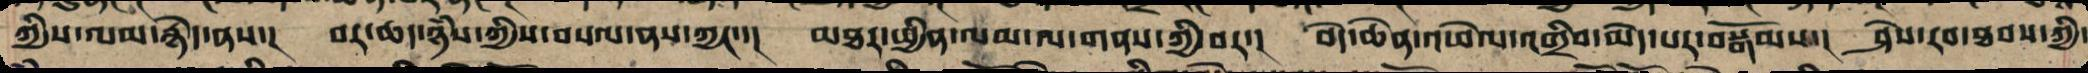ཀྱི་ལམ་རྙེད་ནས་། བར་ཆད་ཉཾས་ཀྱིས་བསལ་ནས་ཀྱང་་། མཐར་ཕྱིན་ལམ་ལ་གནས་ཀྱི་བར་། བདེ་ཆེན་འཕེལ་འགྲིབ་མེད་པར་བསྒོམས་། ཤེས་རབ་ཐབས་ཀྱི་
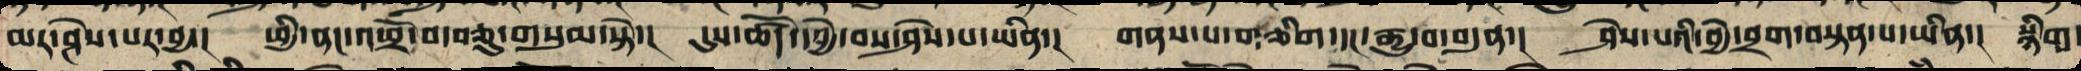མར་ཤེས་པར་བྱ་། ཕྱི་ནང་འཕྲོ་བ་བཅུ་གསུམ་སྟེ་། དུས་ཚོད་དབྱེ་བས་ཤེས་པ་ཡིན་། གནས་པ་གཅིག་དང་རྒྱུ་བ་བདུན་། ཤེས་པའི་བྱེ་བྲག་བསྟན་པ་ཡིན་། སྙིག་
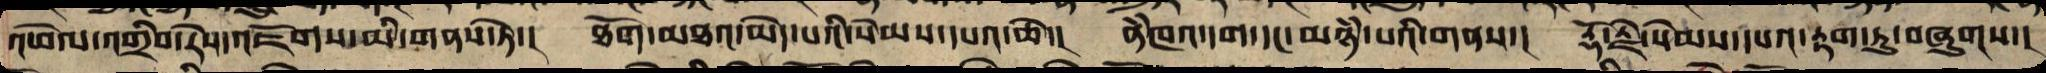འཕེལ་འགྲིབ་རེས་འཇོགས་མི་གནས་ཏེ་།  ཐོག་མཐའ་མེད་པའི་སེམས་དཔའ་ཆེ་།  ནཾཁའ་དག་དང་མཉཾ་པའི་གནས་།  རྡོ་རྗེ་སེམས་དཔའ་རྟག་ཏུ་བཞུགས་།
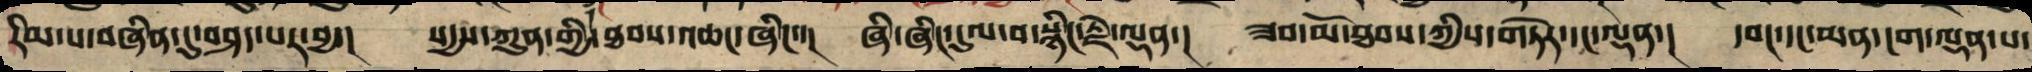རིམ་པ་བཞིན་དུ་བཤད་པར་བྱ་། སདྱས་ཀུན་གྱི་ཐབས་འཆང་ཞིང་་། ཞི་ཞིང་དུལ་བ་སྙིང་རྗེ་ལྡན་། ཟབ་མོ་ཐབས་ཀྱིས་གཏེར་དང་ལྡན་། དབང་དང་མན་ངག་ལྡན་པ་
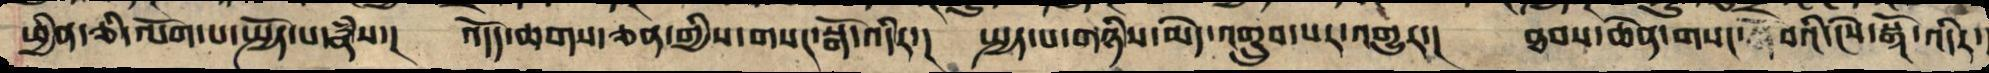ཕྱིན་ཅི་ལོག་པ་སྤྱོད་པ་རྣཾས་། འདོད་ཆགས་ཅན་གྱི་གསང་སྒོ་འདིར་། སྤྱད་པས་གཉིས་མེད་འགྲུབ་པར་འགྱུར་། ཐབས་ཆེན་གསང་བའི་ངེས་སྒོ་འདིར་
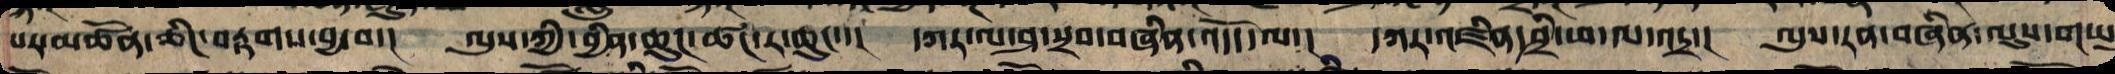པར་མཚོན་ཅིང་བརྟག་བྱ་བ་། ལུས་ཀྱི་བྱིན་ཆུང་ཚང་ར་ཆུང་་། དཀར་ལ་ཤ་སྲབ་བཞིན་འདོད་ལ་། དཀར་འཛིན་ཤྲཱི་ཕ་ལ་འདྲ་། ལུས་རན་བཞིན་ལུས་གཡུ
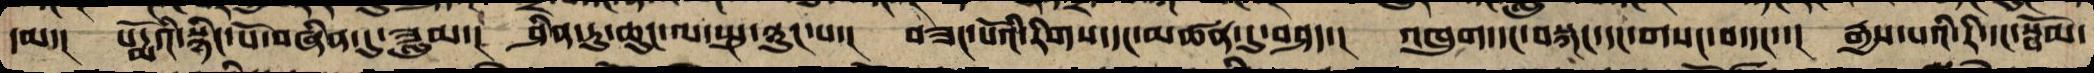དམ་། པདྨོའི་སྙིང་པོ་བཞིན་དུ་ཟླུམ་། ཤིན་ཏུ་ཆུང་ལ་སྤུ་ཉུང་བ་། བཟང་པོའི་རིགས་དང་མཚན་དུ་བཤད་། འཁུག་དང་བསྐང་དང་གསང་བ་དང་་། རྒྱས་པའི་རི་དང་སྦོམ་
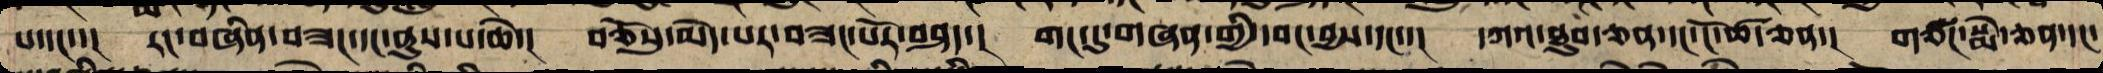པ་དང་་། རང་བཞིན་བཟང་དང་ནུས་པ་ཆེ་། བཅོསུ་མེད་པར་བཟང་པོར་བཤད་། གང་དུ་གཞན་གྱི་དབང་བྱས་དང་་། དཀའ་ཐུབ་ཅན་དང་ངོ་ཚ་ཅན་། གཙང་སྨེ་ཅན་དང་
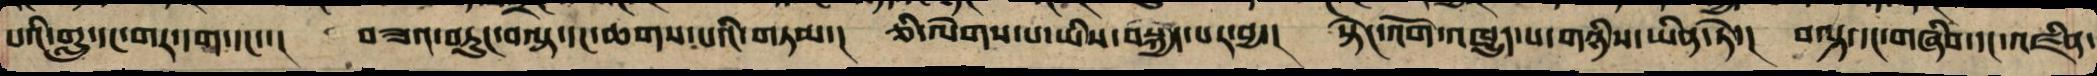པའི་གླུ་དང་གར་དག་དང་་། བཟའ་བཏུང་བལྟ་དང་ཆགས་པའི་གཏམ་། ཅི་ལེགས་པ་ཡིས་བསྐྱད་པར་བྱ་། སྟེང་འོག་འཁྱུད་པ་གཉིས་ཡིན་ཏེ་། བལྟ་དང་གཞིས་དང་འཛིན་
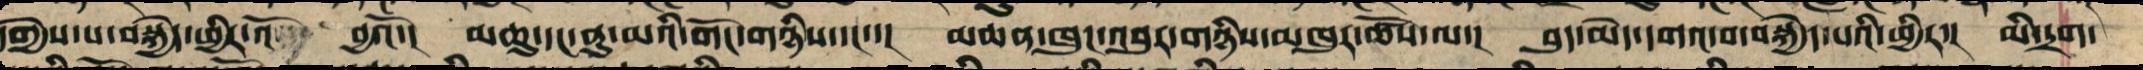དགྱེས་པ་བསྐྱེད་ཕྱིར་འོ   བྱའོ་། མཆུ་དང་ནུ་མའི་གོང་གཉིས་དང་་། མཆན་ཁུང་འབུར་གཉིས་མཁུར་ཚོས་ལ་། བུད་མེད་དགའ་བ་བསྐྱེད་པའི་ཕྱིར་། མི་དྲག་
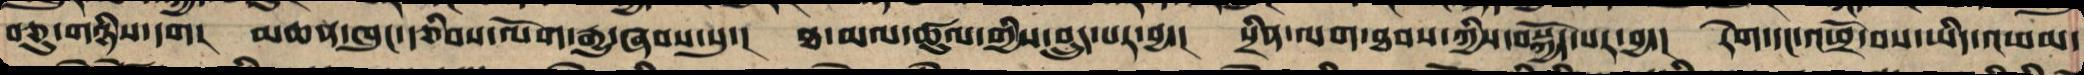བཅུ་གཉིས་དག། མཆན་ཁུང་རྩིབས་ལོག་རྒྱུ་ཞབས་སུ་། ཐ་མལ་ཚུལ་གྱིས་བྲུད་པར་བྱ་། སྲིན་ལག་ཐབས་ཀྱིས་བསྐྱོད་པར་བྱ་། རེག་དང་འཕྲོ་བས་ཡིད་འཕམ་
